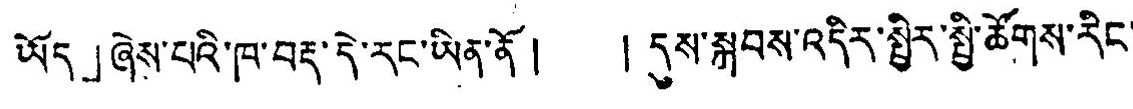ཡོད」ཞེས་པའི་ཁ་བརྡ་དེ་རང་ཡིན་ནོ། །དུས་སྐབས་འདིར་སྤྱིར་སྤྱི་ཚོགས་རིང་
